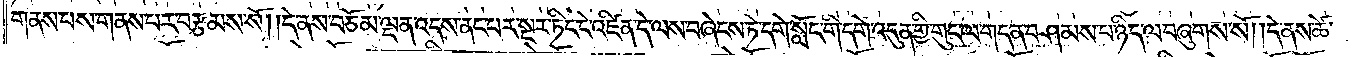གནས་པས་གནས་པར་བརྩམས་སོ། །དེ་ནས་བཅོམ་ལྡན་འདས་ནང་པར་སྔར་ཏིང་ངེ་འཛིན་དེ་ལས་བཞེངས་ཏེ་དགེ་སློང་གི་དགེ་འདུན་གྱི་གུང་ལ་གདན་བཤམས་པ་ཉིད་ལ་བཞུགས་སོ། །དེ་ནས་ཚེ་
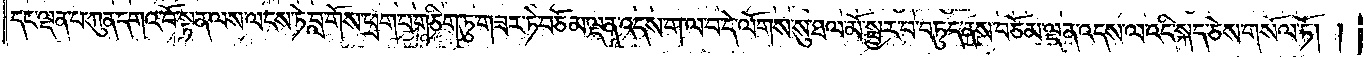དང་ལྡན་པ་ཀུན་དགའ་བོ་སྟན་ལས་ལངས་ཏེ་བླ་གོས་ཕྲག་པ་གཅིག་ཏུ་གཟར་ཏེ་བཅོམ་ལྡན་འདས་ག་ལ་བ་དེ་ལོགས་སུ་ཐལ་མོ་སྦྱར་བ་བཏུད་ནས་བཅོམ་ལྡན་འདས་ལ་འདི་སྐད་ཅེས་གསོལ་ཏོ། །
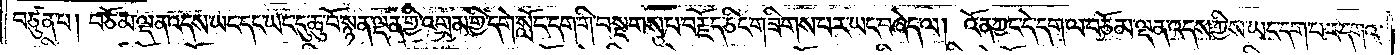བཙུན་པ། བཅོམ་ལྡན་འདས་ཡང་དང་ཡང་དུ་ཆུ་བོ་སྙན་ལྡན་གྱི་འགྲམ་གྱི་དགེ་སློང་དག་གི་བསྔགས་པ་བརྗོད་ཅིང་གཟིགས་པར་ཡང་བཞེད་ལ། འོན་ཀྱང་དེ་དག་ལ་བཅོམ་ལྡན་འདས་ཀྱིས་ཡང་དག་པར་དགའ་
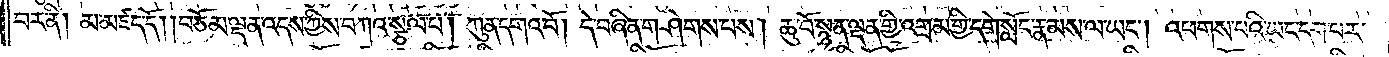བར་ནི། མ་མཛད་དོ། །བཅོམ་ལྡན་འདས་ཀྱིས་བཀའ་སྩལ་པ། ཀུན་དགའ་བོ། དེ་བཞིན་གཤེགས་པས། ཆུ་བོ་སྙན་ལྡན་གྱི་འགྲམ་གྱི་དགེ་སློང་རྣམས་ལ་ཡང༌། འཕགས་པའི་ཡང་དག་པར་
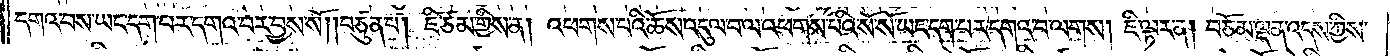དགའ་བས་ཡང་དག་པར་དགའ་བར་བྱས་སོ། །བཙུན་པ། ཇི་ཙམ་གྱིས་ན། འཕགས་པའི་ཆོས་འདུལ་བ་ལ་འཕགས་པའི་སོ་སོ་ཡང་དག་པར་དགའ་བ་ལགས། ཇི་ལྟར་ན། བཅོམ་ལྡན་འདས་ཀྱིས་
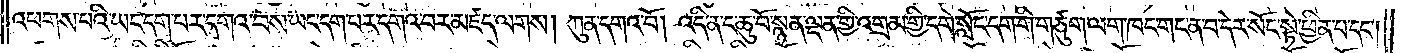འཕགས་པའི་ཡང་དག་པར་དགའ་བས་ཡང་དག་པར་དགའ་བར་མཛད་ལགས། ཀུན་དགའ་བོ། འདི་ན་ང་ཆུ་བོ་སྙན་ལྡན་གྱི་འགྲམ་གྱི་དགེ་སློང་དག་གི་གཙུག་ལག་ཁང་གང་ན་བ་དེར་སོང་སྟེ་ཕྱིན་པ་དང༌།
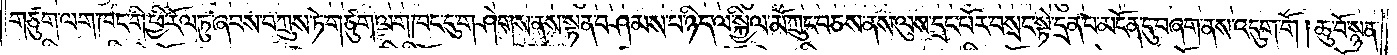གཙུག་ལག་ཁང་གི་ཕྱི་རོལ་ཏུ་ཞབས་བཀྲུས་ཏེ་གཙུག་ལག་ཁང་དུ་གཤེགས་ནས་སྟན་བཤམས་པ་ཉིད་ལ་སྐྱིལ་མོ་ཀྲུང་བཅས་ནས་ལུས་དྲང་པོར་བསྲང་སྟེ་དྲན་པ་མངོན་དུ་བཞག་ནས་འདུག་གོ། ཆུ་བོ་སྙན་
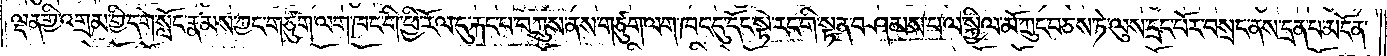ལྡན་གྱི་འགྲམ་གྱི་དགེ་སློང་རྣམས་ཀྱང་གཙུག་ལག་ཁང་གི་ཕྱི་རོལ་དུ་རྐང་པ་བཀྲུས་ནས་གཙུག་ལག་ཁང་དུ་དོང་སྟེ་རང་གི་སྟན་བཤམས་པ་ལ་སྐྱིལ་མོ་ཀྲུང་བཅས་ཏེ་ལུས་དྲང་པོར་བསྲང་ནས་དྲན་པ་མངོན་
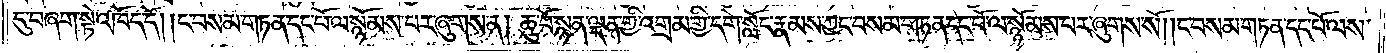དུ་བཞག་སྟེ་འཁོད་དོ། །ང་བསམ་གཏན་དང་པོ་ལ་སྙོམས་པར་ཞུགས་ན། ཆུ་བོ་སྙན་ལྡན་གྱི་འགྲམ་གྱི་དགེ་སློང་རྣམས་ཀྱང་བསམ་གཏན་དང་པོ་ལ་སྙོམས་པར་ཞུགས་སོ། །ང་བསམ་གཏན་དང་པོ་ལས་
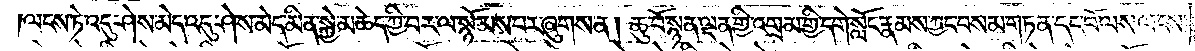ལངས་ཏེ་འདུ་ཤེས་མེད་འདུ་ཤེས་མེད་མིན་སྐྱེ་མཆེད་ཀྱི་བར་ལ་སྙོམས་པར་ཞུགས་ན། ཆུ་བོ་སྙན་ལྡན་གྱི་འགྲམ་གྱི་དགེ་སློང་རྣམས་ཀྱང་བསམ་གཏན་དང་པོ་ལས་ལངས་
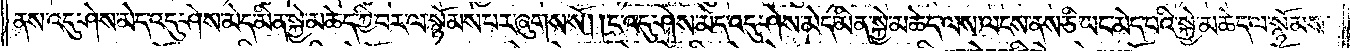ནས་འདུ་ཤེས་མེད་འདུ་ཤེས་མེད་མིན་སྐྱེ་མཆེད་ཀྱི་བར་ལ་སྙོམས་པར་ཞུགས་སོ། །ང་འདུ་ཤེས་མེད་འདུ་ཤེས་མེད་མིན་སྐྱེ་མཆེད་ལས་ལངས་ནས་ཅི་ཡང་མེད་པའི་སྐྱེ་མཆེད་ལ་སྙོམས་
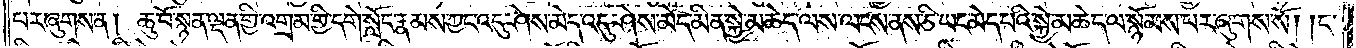པར་ཞུགས་ན། ཆུ་བོ་སྙན་ལྡན་གྱི་འགྲམ་གྱི་དགེ་སློང་རྣམས་ཀྱང་འདུ་ཤེས་མེད་འདུ་ཤེས་མེད་མིན་སྐྱེ་མཆེད་ལས་ལངས་ནས་ཅི་ཡང་མེད་པའི་སྐྱེ་མཆེད་ལ་སྙོམས་པར་ཞུགས་སོ། །ང་
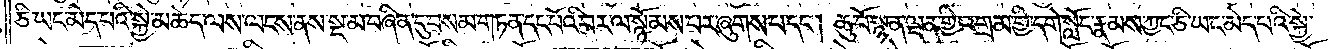ཅི་ཡང་མེད་པའི་སྐྱེ་མཆེད་ལས་ལངས་ནས་སྔ་མ་བཞིན་དུ་བསམ་གཏན་དང་པོའི་བར་ལ་སྙོམས་པར་ཞུགས་པ་དང༌། ཆུ་བོ་སྙན་ལྡན་གྱི་འགྲམ་གྱི་དགེ་སློང་རྣམས་ཀྱང་ཅི་ཡང་མེད་པའི་སྐྱེ་
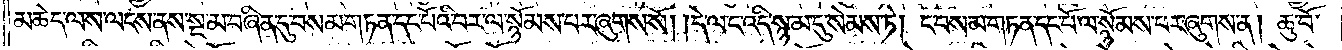མཆེད་ལས་ལངས་ནས་སྔ་མ་བཞིན་དུ་བསམ་གཏན་དང་པོའི་བར་ལ་སྙོམས་པར་ཞུགས་སོ། །དེ་ལ་ང་འདི་སྙམ་དུ་སེམས་ཏེ། ང་བསམ་གཏན་དང་པོ་ལ་སྙོམས་པར་ཞུགས་ན། ཆུ་བོ་
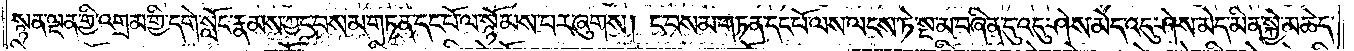སྙན་ལྡན་གྱི་འགྲམ་གྱི་དགེ་སློང་རྣམས་ཀྱང་བསམ་གཏན་དང་པོ་ལ་སྙོམས་པར་ཞུགས། ང་བསམ་གཏན་དང་པོ་ལས་ལངས་ཏེ་སྔ་མ་བཞིན་དུ་འདུ་ཤེས་མེད་འདུ་ཤེས་མེད་མིན་སྐྱེ་མཆེད་
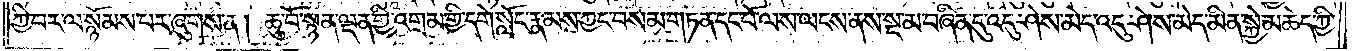ཀྱི་བར་ལ་སྙོམས་པར་ཞུགས་ན། ཆུ་བོ་སྙན་ལྡན་གྱི་འགྲམ་གྱི་དགེ་སློང་རྣམས་ཀྱང་བསམ་གཏན་དང་པོ་ལས་ལངས་ནས་སྔ་མ་བཞིན་དུ་འདུ་ཤེས་མེད་འདུ་ཤེས་མེད་མིན་སྐྱེ་མཆེད་ཀྱི་
